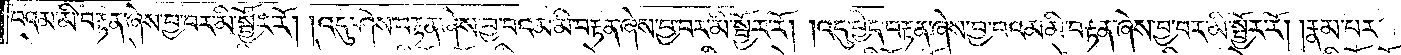བའམ་མི་བརྟན་ཞེས་བྱ་བར་མི་སྦྱོར་རོ། །འདུ་ཤེས་བརྟན་ཞེས་བྱ་བའམ་མི་བརྟན་ཞེས་བྱ་བར་མི་སྦྱོར་རོ། །འདུ་བྱེད་བརྟན་ཞེས་བྱ་བའམ་མི་བརྟན་ཞེས་བྱ་བར་མི་སྦྱོར་རོ། །རྣམ་པར་
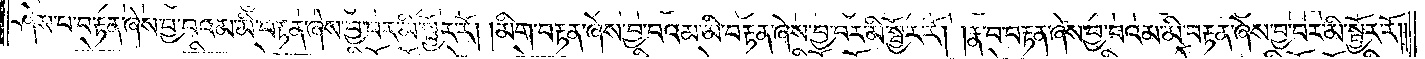ཤེས་པ་བརྟན་ཞེས་བྱ་བའམ་མི་བརྟན་ཞེས་བྱ་བར་མི་སྦྱོར་རོ། །མིག་བརྟན་ཞེས་བྱ་བའམ་མི་བརྟན་ཞེས་བྱ་བར་མི་སྦྱོར་རོ། །རྣ་བ་བརྟན་ཞེས་བྱ་བའམ་མི་བརྟན་ཞེས་བྱ་བར་མི་སྦྱོར་རོ༎
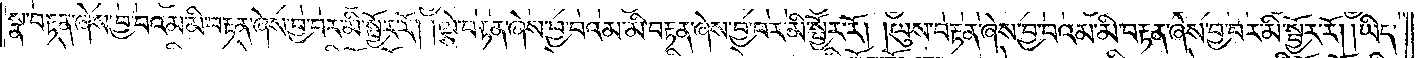སྣ་བརྟན་ཞེས་བྱ་བའམ་མི་བརྟན་ཞེས་བྱ་བར་མི་སྦྱོར་རོ། །ལྕེ་བརྟན་ཞེས་བྱ་བའམ་མི་བརྟན་ཞེས་བྱ་བར་མི་སྦྱོར་རོ། །ལུས་བརྟན་ཞེས་བྱ་བའམ་མི་བརྟན་ཞེས་བྱ་བར་མི་སྦྱོར་རོ། །ཡིད་
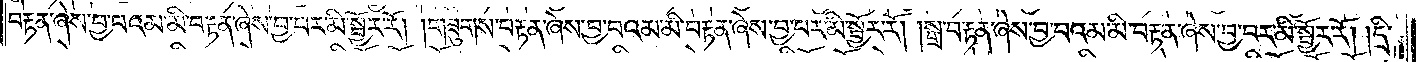བརྟན་ཞེས་བྱ་བའམ་མི་བརྟན་ཞེས་བྱ་བར་མི་སྦྱོར་རོ། །གཟུགས་བརྟན་ཞེས་བྱ་བའམ་མི་བརྟན་ཞེས་བྱ་བར་མི་སྦྱོར་རོ། །སྒྲ་བརྟེན་ཞེས་བྱ་བའམ་མི་བརྟན་ཞེས་བྱ་བར་མི་སྦྱོར་རོ། །དྲི་
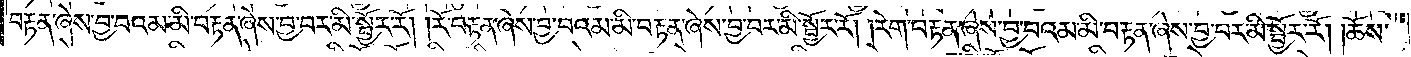བརྟན་ཞེས་བྱ་བའམ་མི་བརྟན་ཞེས་བྱ་བར་མི་སྦྱོར་རོ། །རོ་བརྟན་ཞེས་བྱ་བའམ་མི་བརྟན་ཞེས་བྱ་བར་མི་སྦྱོར་རོ། །རེག་བརྟན་ཞེས་བྱ་བའམ་མི་བརྟན་ཞེས་བྱ་བར་མི་སྦྱོར་རོ། །ཆོས་
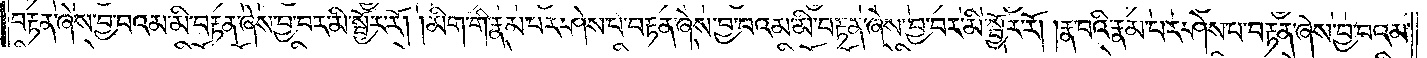བརྟན་ཞེས་བྱ་བའམ་མི་བརྟན་ཞེས་བྱ་བར་མི་སྦྱོར་རོ། །མིག་གི་རྣམ་པར་ཤེས་པ་བརྟན་ཞེས་བྱ་བའམ་མི་བརྟན་ཞེས་བྱ་བར་མི་སྦྱོར་རོ། །རྣ་བའི་རྣམ་པར་ཤེས་པ་བརྟན་ཞེས་བྱ་བའམ་
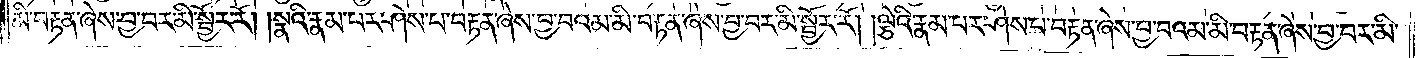མི་བརྟན་ཞེས་བྱ་བར་མི་སྦྱོར་རོ། །སྣའི་རྣམ་པར་ཤེས་པ་བརྟན་ཞེས་བྱ་བའམ་མི་བརྟན་ཞེས་བྱ་བར་མི་སྦྱོར་རོ། །ལྕེའི་རྣམ་པར་ཤེས་པ་བརྟན་ཞེས་བྱ་བའམ་མི་བརྟན་ཞེས་བྱ་བར་མི་
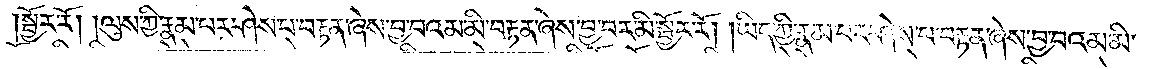སྦྱོར་རོ། །ལུས་ཀྱི་རྣམ་པར་ཤེས་པ་བརྟན་ཞེས་བྱ་བའམ་མི་བརྟན་ཞེས་བྱ་བར་མི་སྦྱོར་རོ། །ཡིད་ཀྱི་རྣམ་པར་ཤེས་པ་བརྟན་ཞེས་བྱ་བའམ་མི་
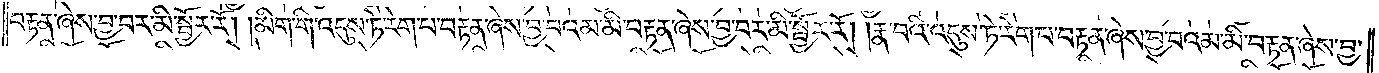བརྟན་ཞེས་བྱ་བར་མི་སྦྱོར་རོ། །མིག་གི་འདུས་ཏེ་རེག་པ་བརྟན་ཞེས་བྱ་བའམ་མི་བརྟན་ཞེས་བྱ་བར་མི་སྦྱོར་རོ། །རྣ་བའི་འདུས་ཏེ་རེག་པ་བརྟན་ཞེས་བྱ་བའམ་མི་བརྟན་ཞེས་བྱ་
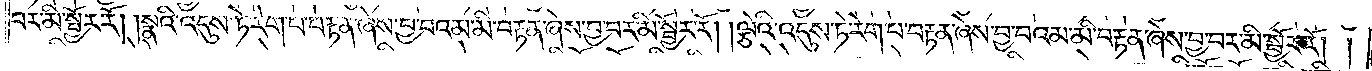བར་མི་སྦྱོར་རོ། །སྣའི་འདུས་ཏེ་རེག་པ་བརྟན་ཞེས་བྱ་བའམ་མི་བརྟན་ཞེས་བྱ་བར་མི་སྦྱོར་རོ། །ལྕེའི་འདུས་ཏེ་རེག་པ་བརྟན་ཞེས་བྱ་བའམ་མི་བརྟན་ཞེས་བྱ་བར་མི་སྦྱོར་རོ། །
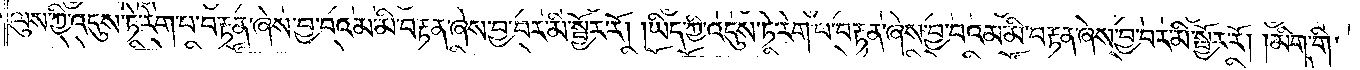ལུས་ཀྱི་འདུས་ཏེ་རེག་པ་བརྟན་ཞེས་བྱ་བའམ་མི་བརྟན་ཞེས་བྱ་བར་མི་སྦྱོར་རོ། །ཡིད་ཀྱི་འདུས་ཏེ་རེག་པ་བརྟན་ཞེས་བྱ་བའམ་མི་བརྟན་ཞེས་བྱ་བར་མི་སྦྱོར་རོ། །མིག་གི་
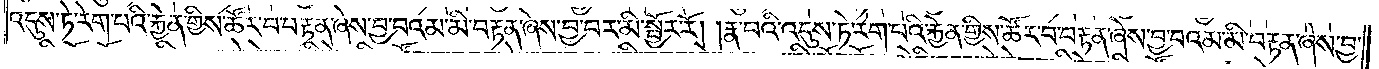འདུས་ཏེ་རེག་པའི་རྐྱེན་གྱིས་ཚོར་བ་བརྟན་ཞེས་བྱ་བའམ་མི་བརྟན་ཞེས་བྱ་བར་མི་སྦྱོར་རོ། །རྣ་བའི་འདུས་ཏེ་རེག་པའི་རྐྱེན་གྱིས་ཚོར་བ་བརྟན་ཞེས་བྱ་བའམ་མི་བརྟན་ཞེས་བྱ་
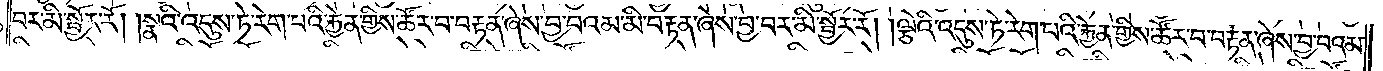བར་མི་སྦྱོར་རོ། །སྣའི་འདུས་ཏེ་རེག་པའི་རྐྱེན་གྱིས་ཚོར་བ་བརྟན་ཞེས་བྱ་བའམ་མི་བརྟན་ཞེས་བྱ་བར་མི་སྦྱོར་རོ། །ལྕེའི་འདུས་ཏེ་རེག་པའི་རྐྱེན་གྱིས་ཚོར་བ་བརྟན་ཞེས་བྱ་བའམ་
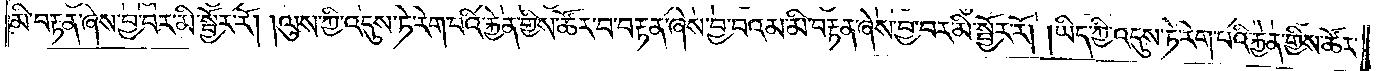མི་བརྟན་ཞེས་བྱ་བར་མི་སྦྱོར་རོ། །ལུས་ཀྱི་འདུས་ཏེ་རེག་པའི་རྐྱེན་གྱིས་ཚོར་བ་བརྟན་ཞེས་བྱ་བའམ་མི་བརྟན་ཞེས་བྱ་བར་མི་སྦྱོར་རོ། །ཡིད་ཀྱི་འདུས་ཏེ་རེག་པའི་རྐྱེན་གྱིས་ཚོར་
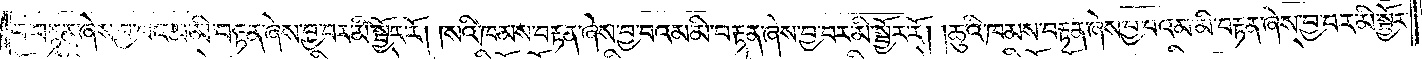བ་བརྟན་ཞེས་བྱ་བའམ་མི་བརྟན་ཞེས་བྱ་བར་མི་སྦྱོར་རོ། །སའི་ཁམས་བརྟན་ཞེས་བྱ་བའམ་མི་བརྟན་ཞེས་བྱ་བར་མི་སྦྱོར་རོ། །ཆུའི་ཁམས་བརྟན་ཞེས་བྱ་བའམ་མི་བརྟན་ཞེས་བྱ་བར་མི་སྦྱོར་
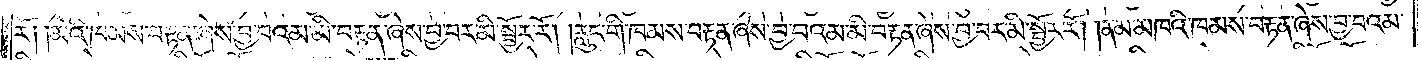རོ༑ ༑མེའི་ཁམས་བརྟན་ཞེས་བྱ་བའམ་མི་བརྟན་ཞེས་བྱ་བར་མི་སྦྱོར་རོ། །རླུང་གི་ཁམས་བརྟན་ཞེས་བྱ་བའམ་མི་བརྟན་ཞེས་བྱ་བར་མི་སྦྱོར་རོ། །ནམ་མཁའི་ཁམས་བརྟན་ཞེས་བྱ་བའམ་
